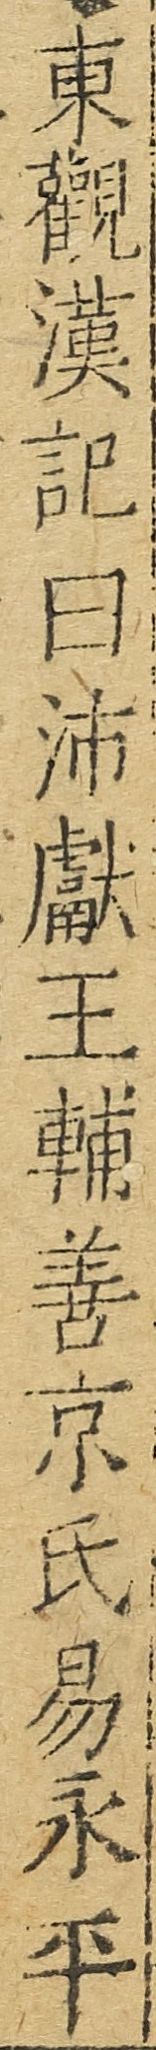東觀漢記曰沛獻王輔善京氏易永平
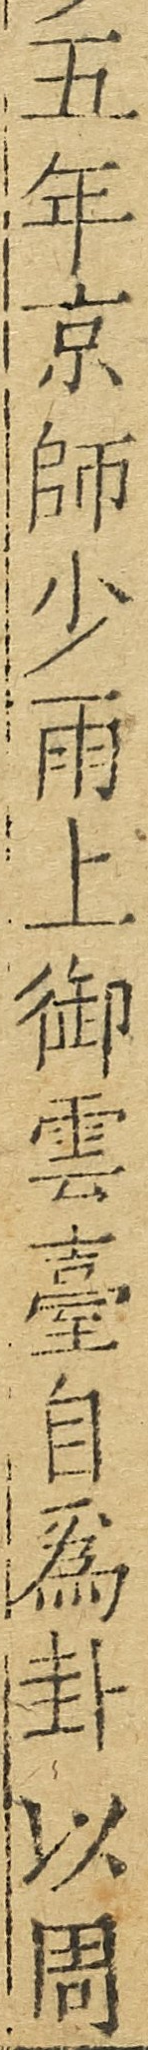五年京師少雨上御雲臺自爲卦以周
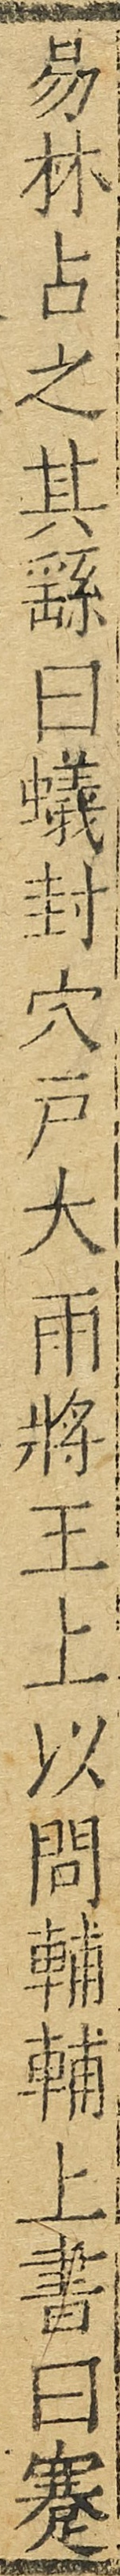易林占之其繇曰蟻封穴戶大雨將至上以問輔輔上書曰蹇
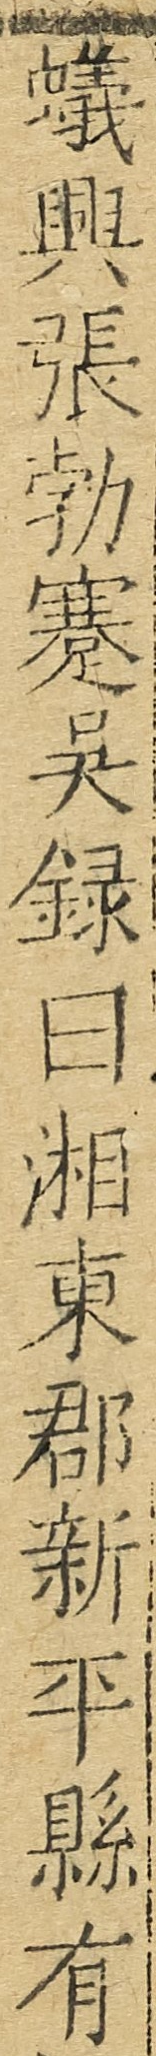蟻興張勃蹇吳錄曰湘東郡新平縣有
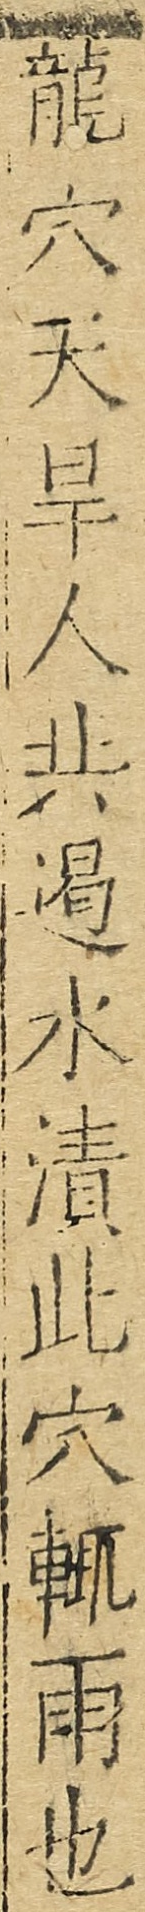龍穴天旱人共遏水漬此穴輒雨也
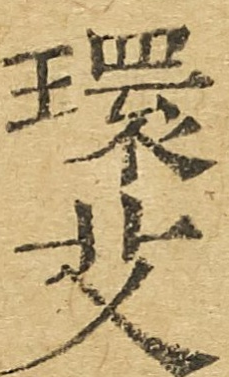環艾
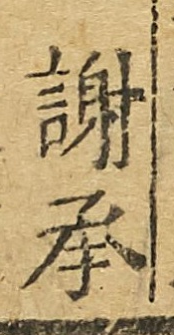謝承
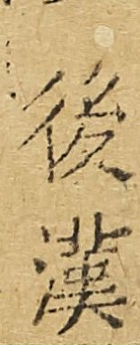後漢
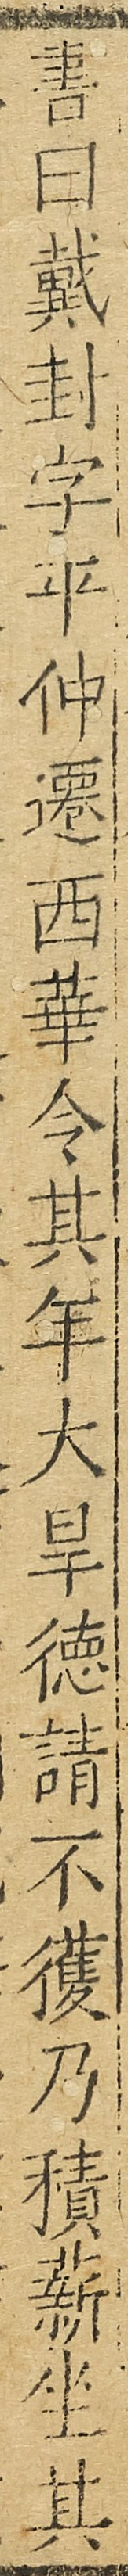書曰戴封字平仲遷西華令其年大旱禱請不獲乃積薪坐其
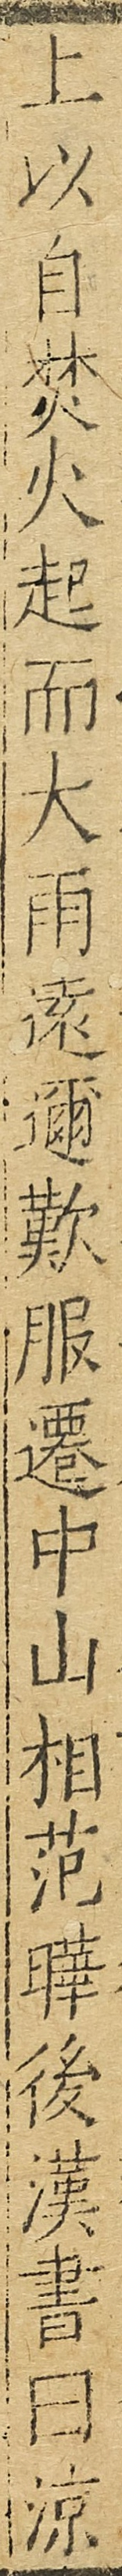上以自焚火起而大雨遠邇歎服遷中山令范曄後漢書曰涼
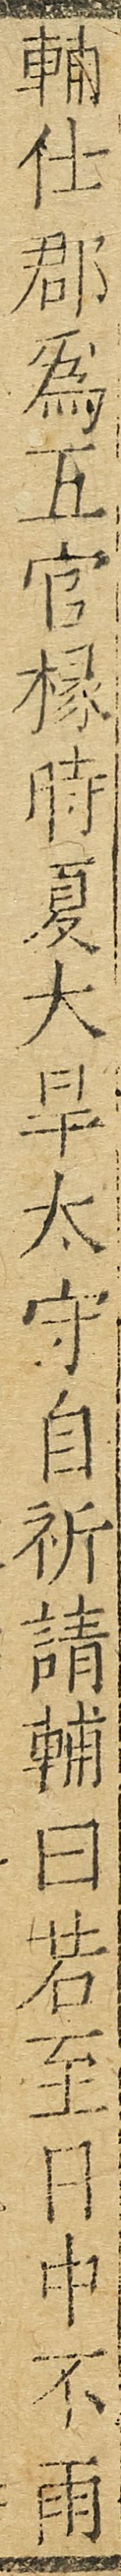輔仕郡爲五官掾時夏大旱太守自祈請輔曰若至日中不雨
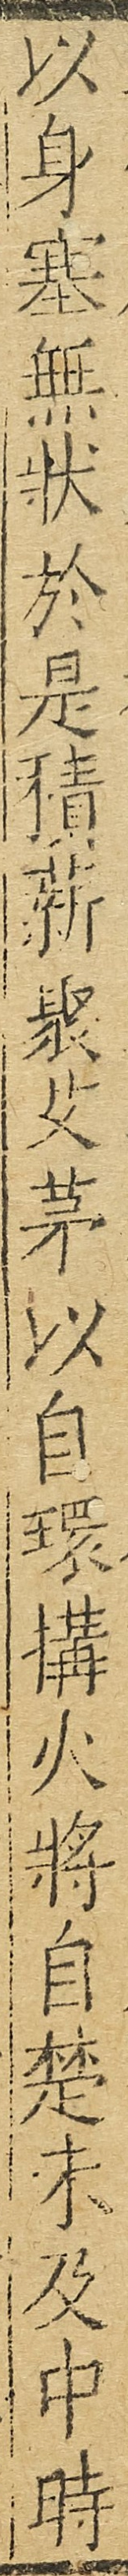以身塞無狀於是積薪聚艾茅以自環構火將自焚未及中時
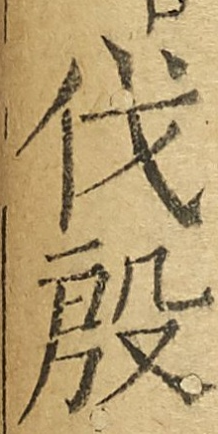伐殷
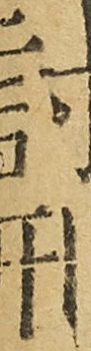討邢
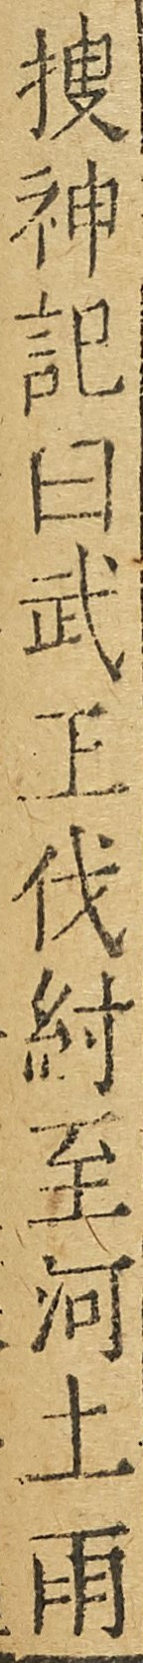搜神記曰武王伐紂至河土雨
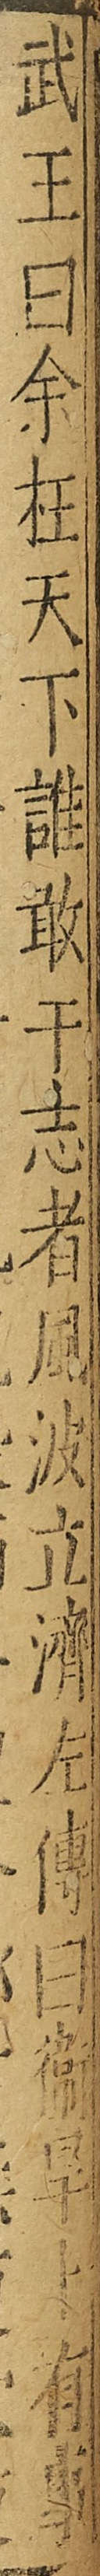武王曰余在天下誰敢干志者風波立濟左傳曰衞旱卜有事
